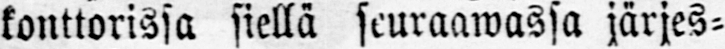konttorissa siellä seuraawassa järjes-
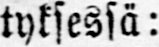tyksessä:
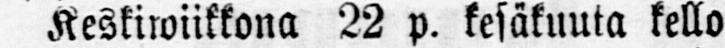Keskiwiikkona 22 p. kesäkuuta kello
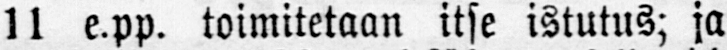11 e.pp. toimitetaan itse istutus; ja
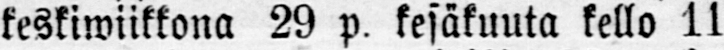keskiwiikkona 29 p. kesäkuuta kello 11
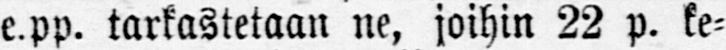e.pp. tarkastetaan ne, joihin 22 p. ke-
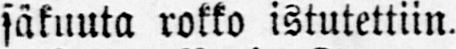säkuuta rokko istutettiin.
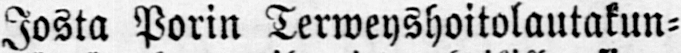Josta Porin Terweyshoitolautakun-
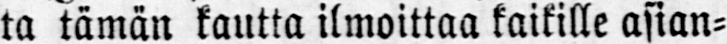ta tämän kautta ilmoittaa kaikille asian-
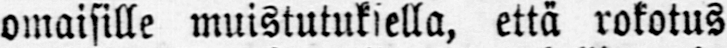omaisille muistutuksella, että rokotus
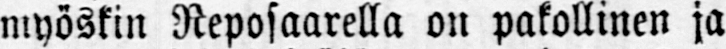myöskin Reposaarella on pakollinen ja
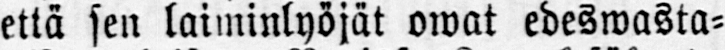että sen laiminlyöjät owat edeswasta-
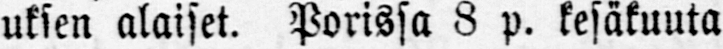uksen alaiset. Porissa 3 p. kesäkuuta
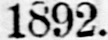1892.
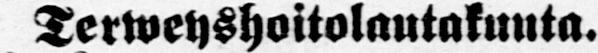Terweyshoitolautakuuta.
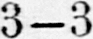3-3
